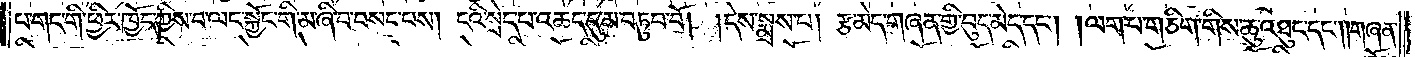པ་གང་གི་ཕྱིར་ཁྱོད་ཀྱིས་བ་ལང་སྐྱོང་གི་མ་ཞི་བ་བསད་པས། ངའི་སྲེད་པ་འཆད་དུ་མ་བཏུབ་བོ། །དེས་སྨྲས་པ། རྩ་མེད་གཞན་གྱི་བུད་མེད་དང༌། །ལག་པ་གཅིག་གིས་ཆུ་འཐུང་དང༌། །གཞན་
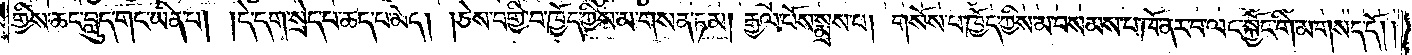གྱིས་ཆང་བླུད་གང་ཡིན་པ། །དེ་དག་སྲེད་པ་ཆད་པ་མེད། །ཅེས་བགྱི་བ་ཁྱོད་ཀྱིས་མ་གསན་ཏམ། རྒྱལ་པོས་སྨྲས་པ། གསོས་པ་ཁྱོད་ཀྱིས་མ་བསམས་པ་ཁོ་ནར་བ་ལང་སྐྱོང་གི་མ་གསད་དོ། །
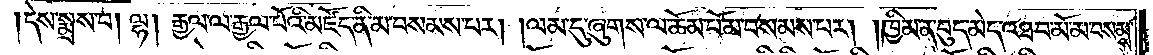དེས་སྨྲས་པ། ལྷ། རྒྱལ་ལ་རྒྱལ་པོའི་མཛོད་ནི་མ་བསམས་པར། །ལམ་དུ་ཞུགས་ལ་ཆོམ་པོ་མ་བསམས་པར། །ཁྱིམ་ན་བུད་མེད་འཐབ་མོ་མ་བསམས་
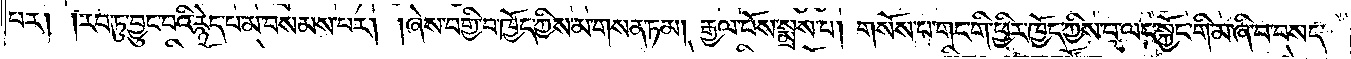པར། །རབ་ཏུ་བྱུང་བའི་རྙེད་པ་མ་བསམས་པར། །ཞེས་བགྱི་བ་ཁྱོད་ཀྱིས་མ་གསན་ཏམ། རྒྱལ་པོས་སྨྲས་པ། གསོས་པ་གང་གི་ཕྱིར་ཁྱོད་ཀྱིས་བ་ལང་སྐྱོང་གི་མ་ཞི་བ་བསད་
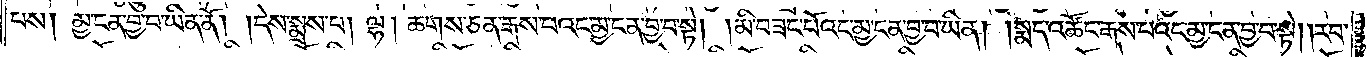པས། མྱ་ངན་བྱ་བ་ཡིན་ནོ། །དེས་སྨྲས་པ། ལྷ། ཆགས་ཅན་རྒས་པའང་མྱ་ངན་བྱ་བ་སྟེ། །མི་བཟང་པོའང་མྱ་ངན་བྱ་བ་ཡིན། །སྨད་འཚོང་རྒས་པའང་མྱ་ངན་བྱ་བ་སྟེ། །རབ་
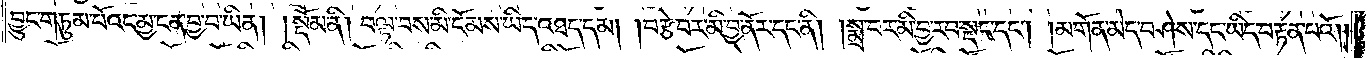བྱུང་གཏུམ་པོའང་མྱ་ངན་བྱ་བ་ཡིན། །སྡོམ་ནི། བལྟ་བས་མི་ངོམས་ཡིད་འཐད་དམ། །བརྩེ་བར་མི་བྱ་ནོར་དང་ནི། །སྨྲ་བར་མི་བྱ་རབ་སྡང་དང༌། །མགོན་མེད་བཤེས་དང་ཡིད་བརྟན་པའོ། །
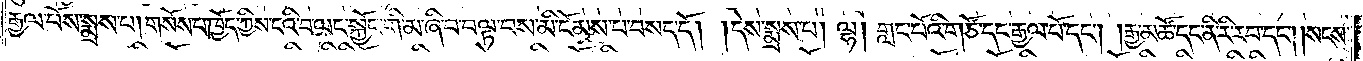རྒྱལ་པོས་སྨྲས་པ། གསོས་པ་ཁྱོད་ཀྱིས་ངའི་བ་ལང་སྐྱོང་གི་མ་ཞི་བ་བལྟ་བས་མི་ངོམས་པ་བསད་དོ། །དེས་སྨྲས་པ། ལྷ། གླང་པོའི་གཙོ་དང་རྒྱལ་པོ་དང༌། །རྒྱ་མཚོ་དང་ནི་རི་རབ་དང༌། །སངས་
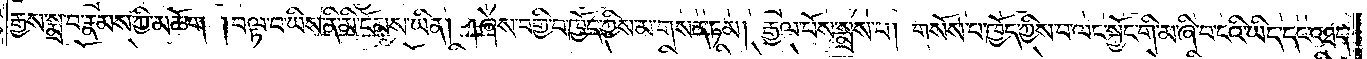རྒྱས་སྨྲ་བ་རྣམས་ཀྱི་མཆོག །བལྟ་བ་ཡིས་ནི་མི་ངོམས་ཡིན། །ཞེས་བགྱི་བ་ཁྱོད་ཀྱིས་མ་གསན་ཏམ། རྒྱལ་པོས་སྨྲས་པ། གསོས་པ་ཁྱོད་ཀྱིས་བ་ལང་སྐྱོང་གི་མ་ཞི་བ་ངའི་ཡིད་དང་འཐད་
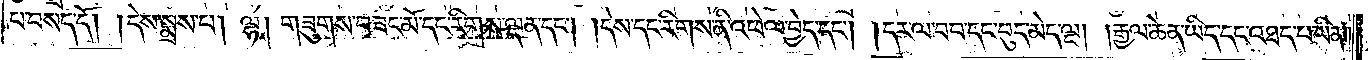པ་བསད་དོ། །དེས་སྨྲས་པ། ལྷ། གཟུགས་བཟང་མོ་དང་རིགས་ལྡན་དང༌། །དེས་དང་རིགས་ནི་འཕེལ་བྱེད་དང༌། །དར་ལ་བབ་དང་བུད་མེད་ལྔ། །རྒྱལ་ཆེན་ཡིད་དང་འཐད་པ་ཡིན། །
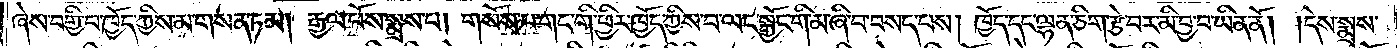ཞེས་བགྱི་བ་ཁྱོད་ཀྱིས་མ་གསན་ཏམ། རྒྱལ་པོས་སྨྲས་པ། གསོས་པ་གང་གི་ཕྱིར་ཁྱོད་ཀྱིས་བ་ལང་སྐྱོང་གི་མ་ཞི་བ་བསད་པས། ཁྱོད་དང་ལྷན་ཅིག་རྩེ་བར་མི་བྱ་བ་ཡིན་ནོ། །དེས་སྨྲས་
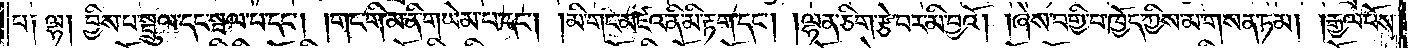པ༑ ལྷ། བྱིས་པ་སྦྲུལ་དང་སྦལ་པ་དང༌། །གང་གི་མ་ནི་གཡེམ་པ་དང༌། །མི་གང་མཛའ་ནི་མི་རྟག་དང༌། །ལྷན་ཅིག་རྩེ་བར་མི་བྱའོ། །ཞེས་བགྱི་བ་ཁྱོད་ཀྱིས་མ་གསན་ཏམ། །རྒྱལ་པོས་
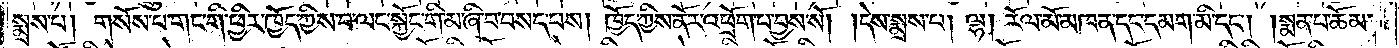སྨྲས་པ། གསོས་པ་གང་གི་ཕྱིར་ཁྱོད་ཀྱིས་བ་ལང་སྐྱོང་གི་མ་ཞི་བ་བསད་པས། ཁྱོད་ཀྱིས་ནོར་འཕྲོག་པ་བྱས་སོ། །དེས་སྨྲས་པ། ལྷ། རོལ་མོ་མཁན་དང་དམག་མི་དང༌། །སྨན་པ་ཆོམ་
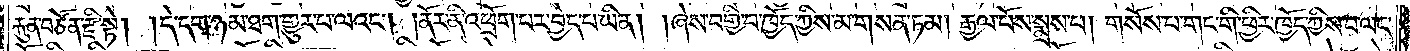རྐུན་བཙོན་རྫི་སྟེ། །དེ་དག་ཉམ་ཐག་གྱུར་པ་ལའང༌། །ནོར་ནི་འཕྲོག་པར་བྱེད་པ་ཡིན། །ཞེས་བགྱི་བ་ཁྱོད་ཀྱིས་མ་གསན་ཏམ། རྒྱལ་པོས་སྨྲས་པ། གསོས་པ་གང་གི་ཕྱིར་ཁྱོད་ཀྱིས་བ་ལང་
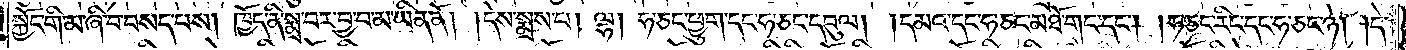སྐྱོང་གི་མ་ཞི་བ་བསད་པས། ཁྱོད་ནི་སྨྲ་བར་བྱ་བ་མ་ཡིན་ནོ། །དེས་སྨྲས་པ། ལྷ། ཧ་ཅང་ཕྱུག་དང་ཧ་ཅང་དབུལ། །དམའ་དང་ཧ་ཅང་མཐོ་གང་དང༌། །ཧ་ཅང་རིང་དང་ཧ་ཅང་ཉེ། །དེ་
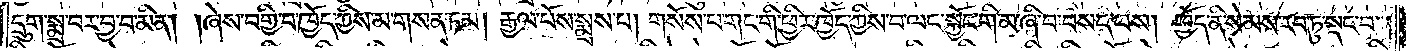དྲུག་སྨྲ་བར་བྱ་བ་མིན། །ཞེས་བགྱི་བ་ཁྱོད་ཀྱིས་མ་གསན་ཏམ། རྒྱལ་པོས་སྨྲས་པ། གསོས་པ་གང་གི་ཕྱིར་ཁྱོད་ཀྱིས་བ་ལང་སྐྱོང་གི་མ་ཞི་བ་བསད་པས། ཁྱོད་ནི་སེམས་རབ་ཏུ་སྡང་བ་
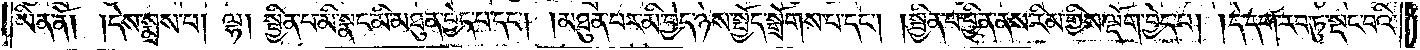ཡིན་ནོ། །དེས་སྨྲས་པ། ལྷ། སྦྱིན་པ་མི་སྣང་མི་མཐུན་བྱེད་པ་དང༌། །མཐུན་པར་མི་བྱེད་ཉེས་སྤྱོད་སྒྲོགས་པ་དང༌། །སྦྱིན་པ་བྱིན་ནས་རིམ་གྱིས་ལྡོག་བྱེད་པ། །དེ་དག་རབ་ཏུ་སྡང་བའི་
